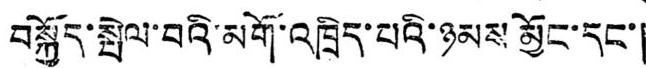བསྐྱོད་སྤེལ་བའི་མགོ་འཁྲིད་པའི་ཉམས མྱོང་དང་།
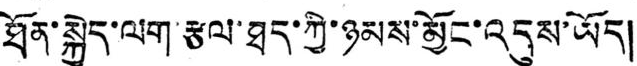ཐོན་སྐྱེད་ལག་རྩལ་ཐད་ཀྱི་ཉམས་མྱོང་འདུས་ཡོད།
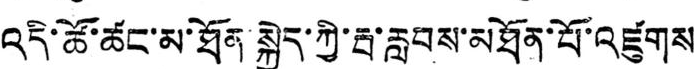འདི་ཚོ་ཚང་མ་ཐོན སྐྱེད་ཀྱི་རྦ་རླབས་མཐོན་པོ་འཛུགས
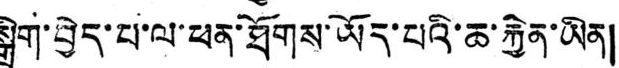སྒྲིག་བྱེད་པ་ལ་ཕན་ཐོགས་ཡོད་པའི་ཆ་རྐྱེན་ཡིན།
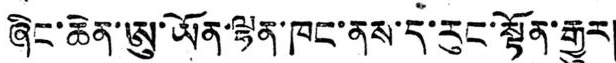ཞིང་ཆེན་ཨུ་ཡོན་ལྷན་ཁང་ནས་ད་རུང་སྟོན་རྒྱུར།
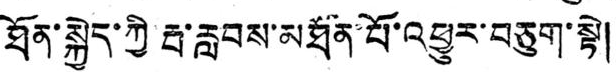ཐོན་སྐྱེད་ཀྱི་རྦ་རླབས་མཐོན་པོ་འཕྱུར་བཅུག་སྟེ།
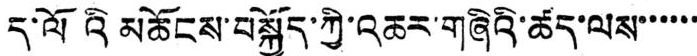ད་ལོའི མཆོངས་བསྐྱོད་ཀྱི་འཆར་གཞིའི་ཚད་ལས་་་་་་
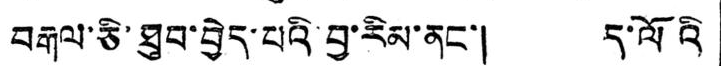བརྒལ་ཅི་ཐུབ་བྱེད་པའི་བྱ་རིམ་ནང་། ད་ལོའི
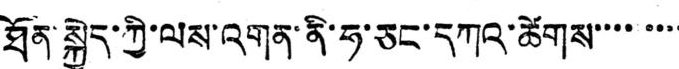ཐོན་སྐྱེད་ཀྱི་ལས་འགན་ནི་ཧ་ཅང་དཀའ་ཚེགས་་་་་་་་
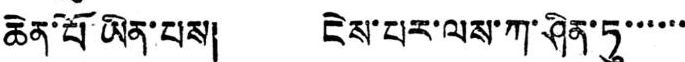ཆེན་པོ་ཡིན་པས། ངེས་པར་ལས་ཀ་ཤིན་ཏུ་་་་་་
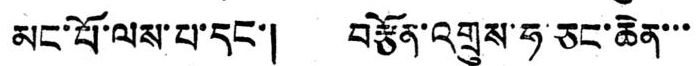མང་པོ་ལས་པ་དང་། བརྩོན་འགྲུས་ཧ་ཅང་ཆེན་་་
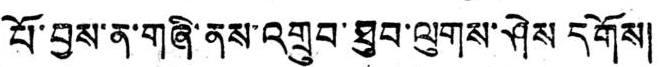པོ་བྱས་ན་གཞི་ནས་འགྲུབ་ཐུབ་ལུགས་ཤེས དགོས།
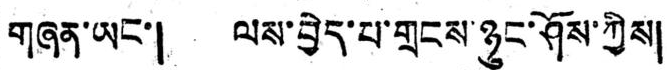གཞན་ཡང་། ལས་བྱེད་པ་གྲངས་ཉུང་ཤོས་ཀྱིས།
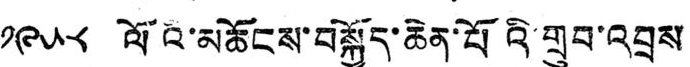༡༩༥༨ ལོའི་མཆོངས་བསྐྱོད་ཆེན་པོའི་གྲུབ་འབྲས
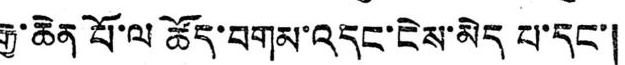རྒྱ་ཆེན པོ་ལ ཚོད་བགམ་འདང་ངེས་མེད པ་དང་།
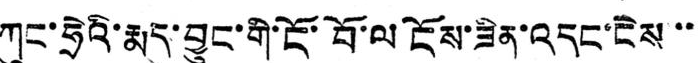གུང་ཧྲེའི་རྨད་བྱུང་གི་ངོ་བོ་ལ ངོས་ཟིན་འདང་ངེས་་
